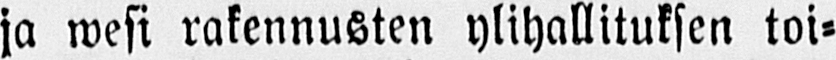ja wesi rakennusten ylihallituksen toi-
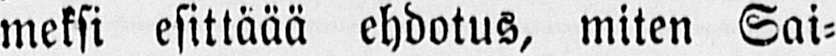meksi esittäää ehdotus, miten Sai-
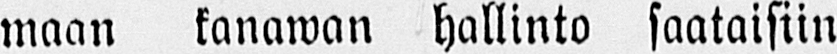maan kanawan hallinto saataisiin
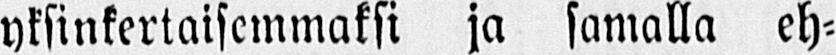yksinkertaisemmaksi ja samalla eh-
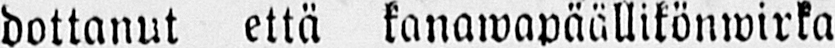dottanut että kanawapäällikönwirka
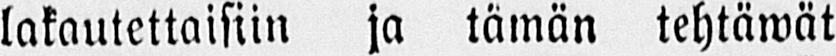lakautettaisiin ja tämän tehtäwät
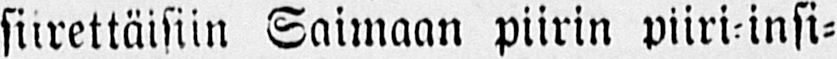siirettäisiin Saimaan piirin piiri-insi-
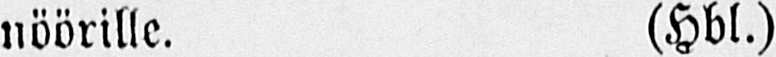nöörille. (Hbl.)
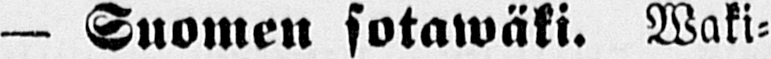— Suomen sotawäki. Waki-
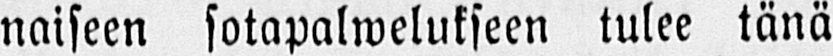naiseen sotapalwelukseen tulee tänä
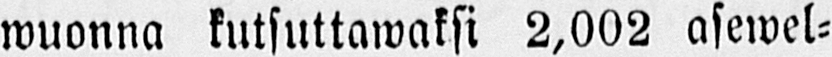wuonna kutsuttawaksi 2,002 asewel-
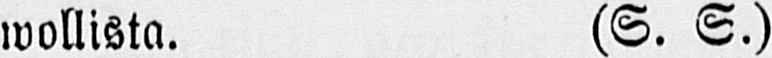wollista. (S. S.)
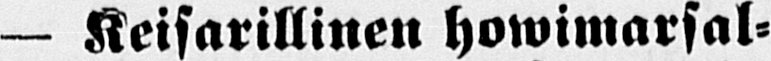— Keisarillinen howimarsal-
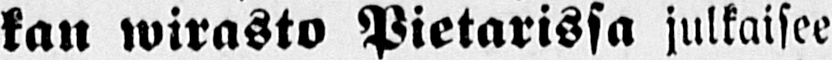kan wirasto Pietarissa julkaisee
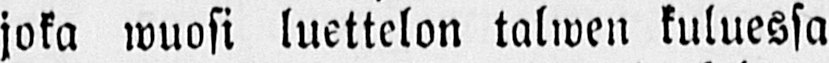joka wuosi luettelon talwen kuluessa
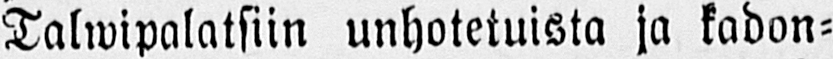Talwipalatsiin unhotetuista ja kadon-
